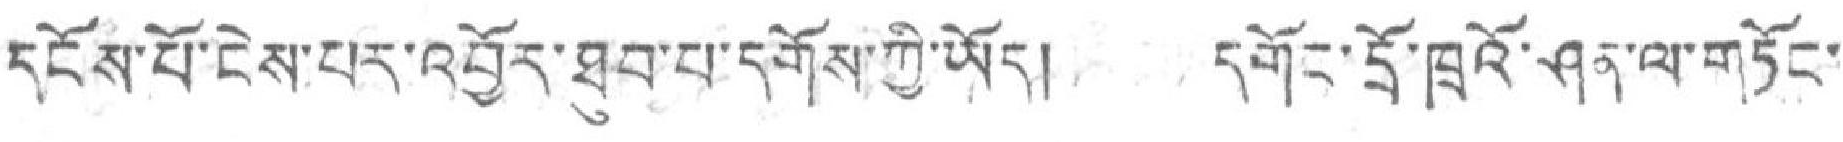དངོས་པོ་ངེས་པར་འབྱོར་ཐུབ་པ་དགོས་ཀྱི་ཡོད། དགོང་དྲོ་ཁྲའོ་ཤན་ལ་གཏོང་
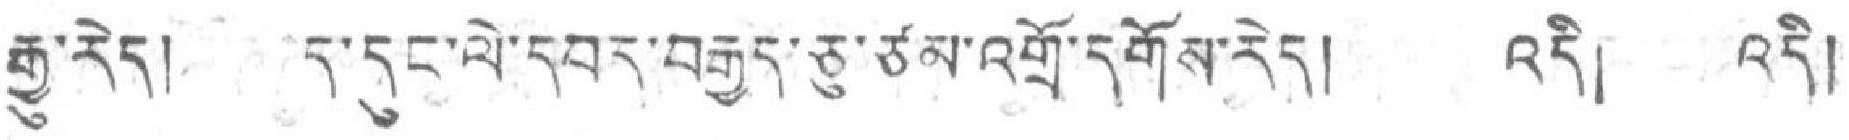རྒྱུ་རེད། ད་དུང་ལེ་དབར་བརྒྱད་ཅུ་ཙམ་འགྲོ་དགོས་རེད། འདི། འདི།
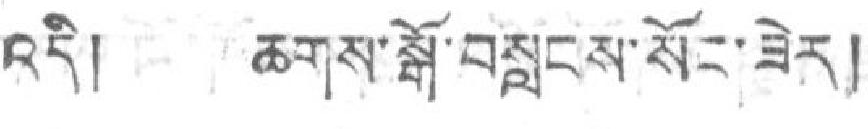འདི། ཆགས་སྒོ་བསླངས་སོང་ཟེར།
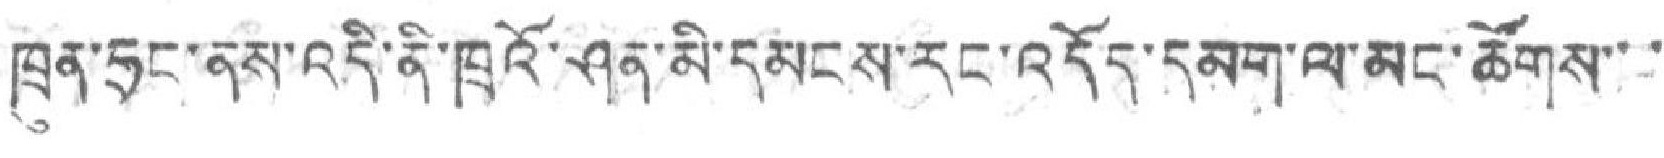ཁྲུན་ཧྲང་ནས་འདི་ནི་ཁྲའོ་ཤན་མི་དམངས་རང་འདོད་དམག་ལ་མང་ཚོགས་་་
